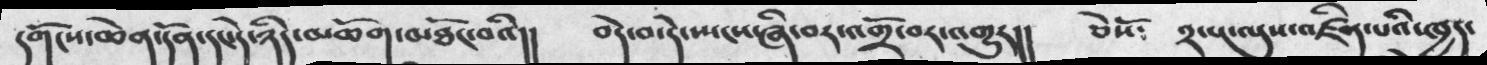དགོངས་ཆེན་དོན་དང་དེ་ཉིད་མཆོག་མཐོང་བའི།།   བདེ་བ་དེ་སྤངས་ཞི་བར་འགྲོ་བར་འགྱུར།།   ཅེསོ༴     ༢་པ་ལུས་འཛིན་པའི་ཁྱད་
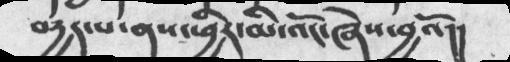བདྱད་པ་ནས་ཕྱིར་མི་འོང་ཞེས་བྱའོ།།
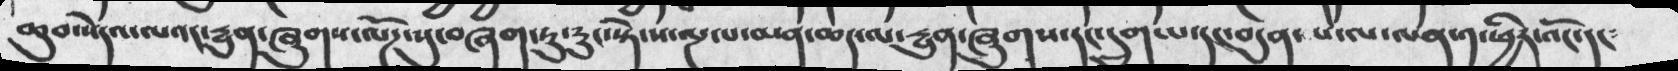ཆུབ་སེཾདའ་ལའང་དྱུན་ཞུགས་ལོཌ་སུ་བཞག་ཏུ་རུང་སྟེ་ས་ལྔ་པ་མན་ཆད་ལ་དྱུན་ཞུགས་དང་དྲུག་པ་དང་བདུན་པ་ལ་ལན་༡་ཕྱིར་འོང་དང༴
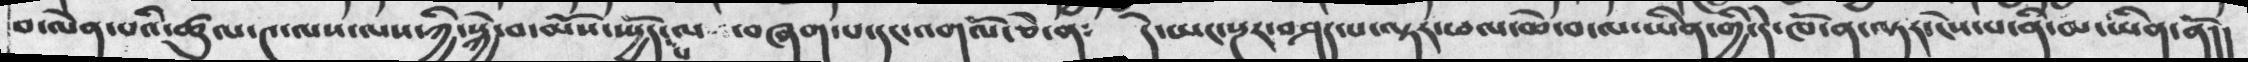བ་ལེན་པའི་ཚུལ་༤་ལས་ལས་ཀྱི་སྐྱེ་བ་མོས་སྤྱོད་པ་ལ་བཞག་པ་དང་འགལོ་ཅེ་ན༴  དེ་ཡང་སྔར་བཤད་པ་ལྟར་ཕལ་ཆེ་བ་མ་ཡིན་གྱི་དེ་ཁོ་ན་ལྟར་ངེས་པ་ནི་མ་ཡིན་ནོ།།
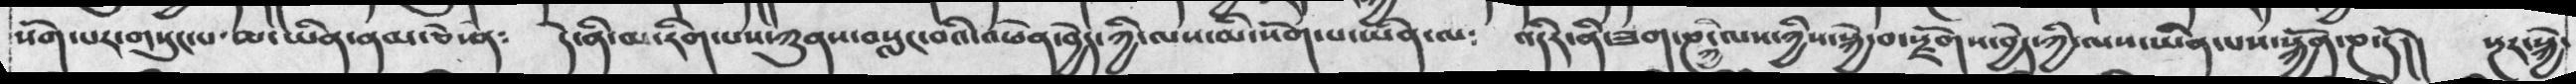སོག་པར་གསུང་པ་མ་ཡིན་ནམ་ཅེ་ན༴  དེ་ནི་མ་རིག་པས་ཀུནས་བསླང་བའི་འཕེན་བྱེད་ཀྱི་ལས་མི་སོག་པ་ཡིན་ལ༴   འདིར་ནི་ཟག་ཎ་ཀྱི་ལས་ཀྱིས་སྐྱེ་བ་རྗོགས་བྱེད་ཀྱི་ལས་ཡིན་པས་སྐྱོན་ཎ་དོ།།   སྔར་སྐྱེ་
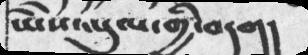ཡེེས་ཡུལ་གྱི་བདག།
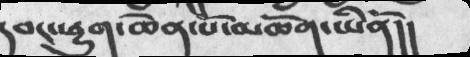དབང་ཕྱུག་ཆེན་པོ་མཆོག་ཡིནོ།།
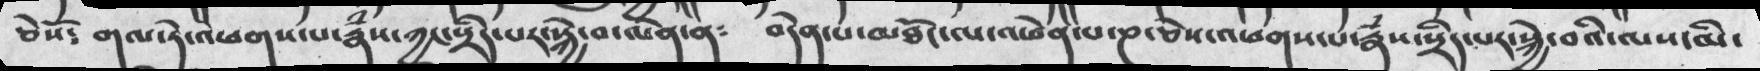ཅེསོ།  གལ་ཏེ་འཕགས་པ་རྣྃས་ཀྱང་སྲིད་པར་སྐྱེ་བ་ལེན་ན༴   བདེན་པ་མཐོང་ལ་འཕེན་པ་ཎ་ཅེས་འཕགས་པ་རྣྃས་སྲིད་པར་སྐྱེ་བའི་ལས་མི་
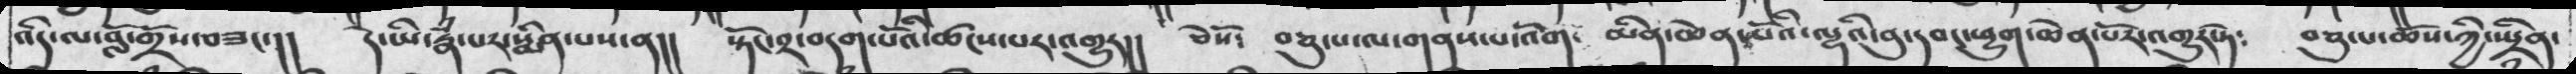འདི་ལ་བློ་གྲོས་བཟང་།།   དེ་ཡི་རྣཾ་པར་སྨིན་པས་ན།།   སྟོང་༢་བདག་པོའི་ཚངས་པར་འགྱུར།།   ཅེསོ༴    བཅུ་པ་ལ་གནས་པ་འོག་  མིན་ཆེན་པོའི་ལྷའི་བུ་དབང་ཕྱུག་ཆེན་པོར་འགྱུར་ཏེ༴    བཅུ་བ་ཆོས་ཀྱི་ཡྲིན་
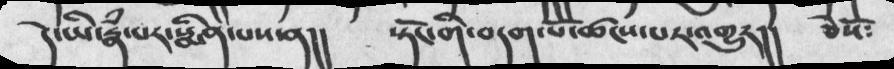དེ་ཡི་རྣཾ་པར་སྨིན་པས་ན།།   སྟོང་གི་བདག་པོ་ཚངས་པར་འགྱུར།།   ཅེསོ༴
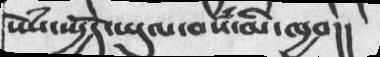སེཾས་སྤྱོད་ཡུལ་བསཾ་མི་ཁྱབ།།
